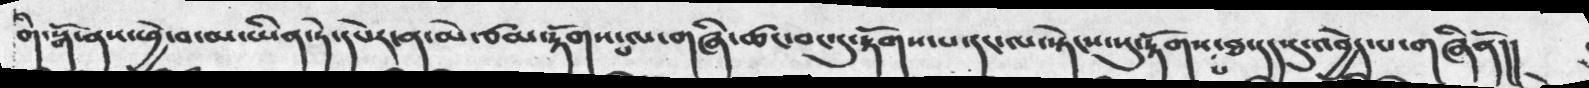གི་སྒོ་ནས་ཕྱེ་བ་མ་ཡིན་ཏེ་དཔེར་ན་མེ་ཙམ་རྟོགས་པ་ལ་གཞི་ཚང་བང་དུ་རྟོགས་པ་དང་ལ་སྟེངས་སུ་རྟོགས་པ་ཐ་དད་དུ་འབྱེད་པ་བཞིནོ།།
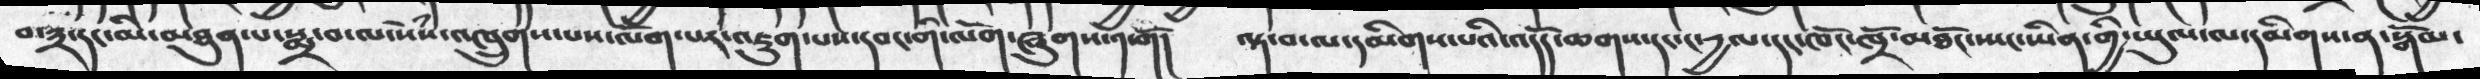བ་༣་དང་མི་མཐུན་པ་སྨྲ་བ་ལ་སེཾས་འཁྲུགས་པས་ལོག་པར་འཇུག་པས་དབང་གི་ལོག་ཞུགས་༡་གོ།    ལྟ་བ་ལ་དམིགས་པའི་འདོད་ཆགས་དང་ང་དྱལ་དང་ཁོང་ཁྲོ་མཐོང་ཡང་ཡིན་གྱི་ཡུལ་ལ་དམིགས་ན་སྒོམ་
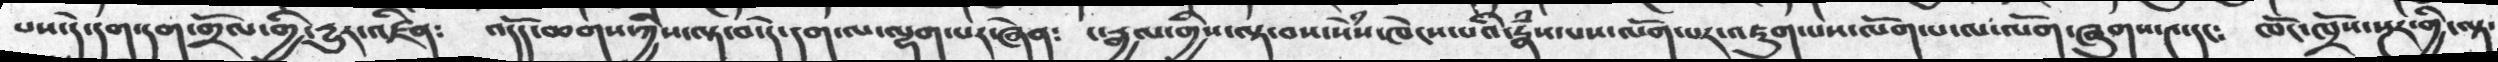པས་དེ་དག་དག་གྲོལ་གྱི་དྱུར་འཛིན༴    འདོད་ཆགས་ཀྱིས་ལྟ་བ་དེ་དག་ལ་ལྷག་པར་ཞེན༴    ང་རྒྱལ་གྱིས་ལྟ་བས་སེཾས་ཁེངས་པའི་རྣཾས་པས་ལོག་པར་འཇུག་པས་ལོག་པ་ལ་ལོག་ཞུགས་༤་དང༴  ཁོང་ཁྲོས་སྔར་གྱི་ལྟ་
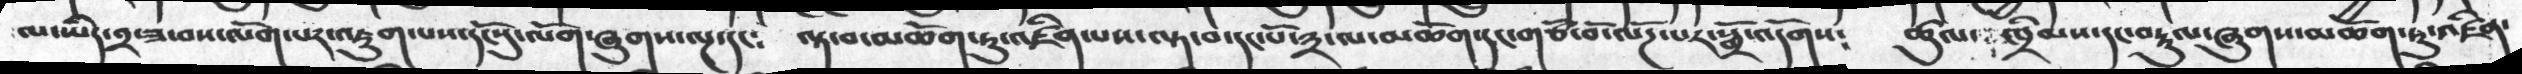ལ་ཡིད་༢་ཟ་བས་ལོག་པར་འཇུག་པས་དངོསུ་ལོག་ཞུགས་ལྔ་དང༴    ལྟ་བ་མཆོག་ཏུ་འཛིན་པས་ལྟ་བ་དང་པོ་༣་ལ་མཆོག་དང་གཙོ་བོ་ལོཌ་པར་སྒྲོ་འདོགས༴   ཚུལ་ ཁྲིམས་དང་བརྟུལ་ཞུགས་མཆོག་ཏུ་འཛིན་
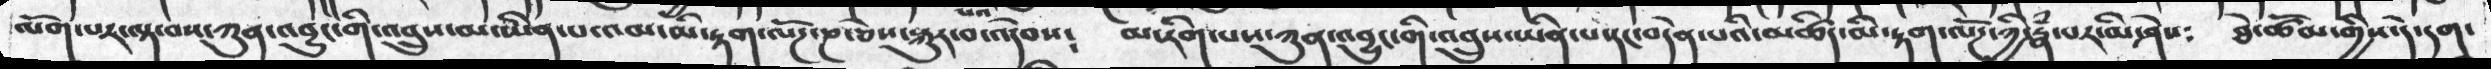ལོག་པར་ལྟ་བས་ཀུན་འབྱུང་གི་འབྲུས་མ་ཡིན་པ་འམ་མི་རྟག་ལོཌ་ཎ་ཅེས་སྐུར་བ་འདེབས༴   མ་རིག་པས་ཀུན་འབྱུང་གི་འབྲུས་ཡིན་པ་དང་བདེན་པའི་མཚིད་མི་རྟག་ལོཌ་ཀྱི་རྣཾ་པར་མི་ཤེས༴   ཐེ་ཚོམ་གྱིས་དེ་དག་
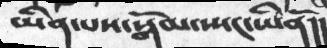ཡིན་པས་སྒོམ་སྤང་ཡིནོ།།
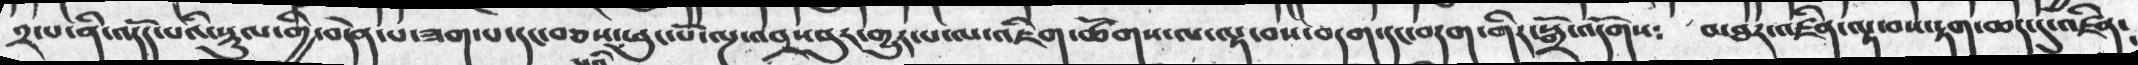༢་པ་ནི་འདོད་པའི་སྡུལ་གྱི་བདེན་པ་ཟག་པ་དང་བཅས་པའི་ཕུང་པོ་ལྔ་འབྲས་བུར་གྱུར་པ་ལ་འཇིག་ཚོགས་ལ་ལྟ་བས་བདག་དང་བདག་གིར་སྒྲོ་འདོགས༴   མཐར་འཛིན་ལྟ་བས་རྟག་ཆད་དུ་འཛིན༴
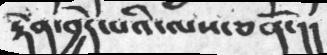རྟེན་བྱེད་༷པའི་ལས་ཅནོ་།།
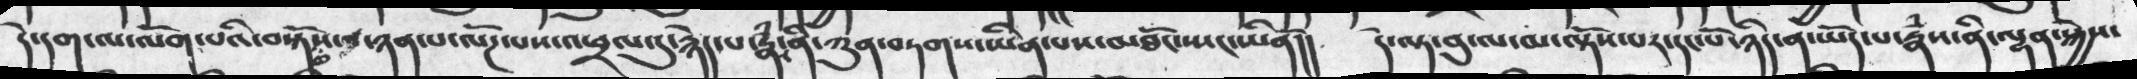དེ་དག་ལ་ལོག་པའི་བསྟོས་ཉན་ལོཌ་པས་འཕྲལ་དུ་རྙེད་པ་རྣཾས་ནི་ཀུན་བཏགས་ཡིན་པས་མཐོང་སྤང་ཡིནོ།།  དེ་ལྟ་བུ་ལ་མ་ལྟོས་པར་དང་པོ་ཉིད་ན་ཡོད་པ་རྣཾས་ནི་ལྷན་སྐྱེས་
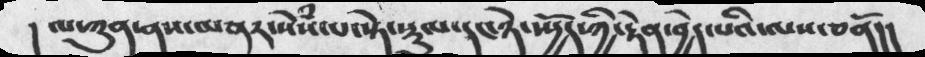། ལ་ཀུན་ནས་མནར་སེཾས་པ་སྟེ་སྟུལ་དང་ཉེ་སྤྱོད་ཀྱི་རྟེན་བྱེད་པའི་ལས་ཅནོ།།
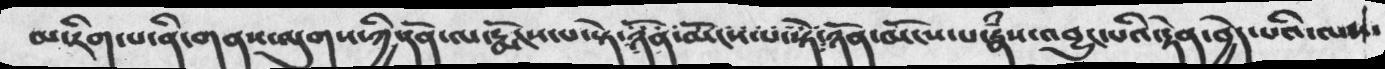མ་རིག་པ་ནི་གནས་ལུགས་ཀྱི་དོན་ལ་རྨོངས་པ་སྟེ་ཉོན་མོངས་པ་སྟེ་ཉོན་མོངས་པ་རྣཾས་འབྱུང་པའི་རྟེན་བྱེད་པའི་ལས་
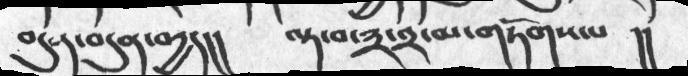བདུན་བདུན་བདྱད།།   ལྟ་བ་༣་༢་མ་གཏོགས་པ   །།
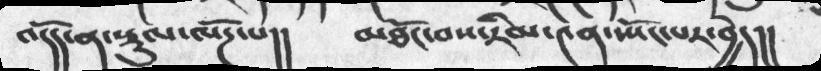འདོད་ན་སྡུལ་ལོཌ་པ།།    མཐོང་བས་རིམ་༤ན་སྤོང་པར་བྱེད།།
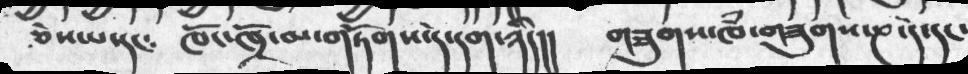ཅེས་པ་དང༴    ཁོང་ཁྲོ་མ་གཏོགས་དེ་དག་ཉིད།།   གཟུགས་ཁཾ་གཟུགས་ཎ་དེ་དང་
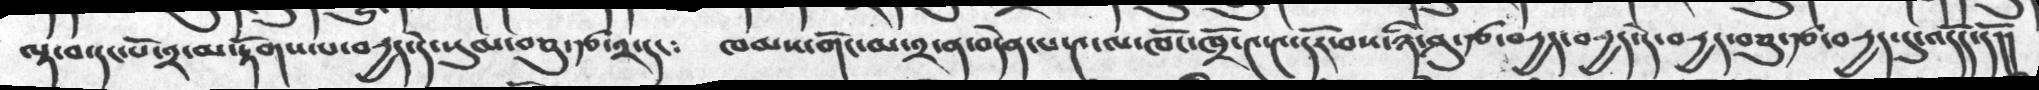ལྟ་བ་དང་པོ་༢་མ་རྟོགས་པ་བདྱད་དེ་སུམ་བཅུ་རྩ་༢་དང༴    ཁམས་གོང་མ་༢་ན་བདེན་པ་༤་ལ་ཁོང་ཁྲོ་༤་༤་དོར་བས་ཉི་ཤུ་རྩ་བདྱད་བདྱད་དེ་བདྱད་བཅུ་རྩ་བདྱད་དུ་འདོད་དོ།།
